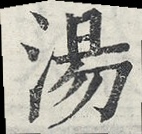湯
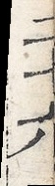二十六
